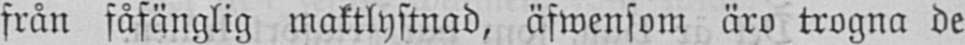från fåfänglig maktlystnad, äfwensom äro trogna de
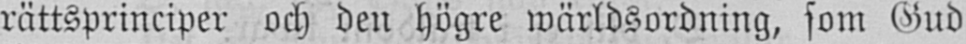rättsprinciper och den högre wärldsordning, som Gud
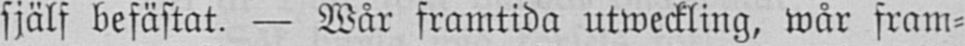själf befästat. — Wår framtida utweckling, wår fram-
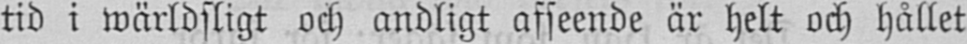tid i wärldsligt och andligt afseende är helt och hållet
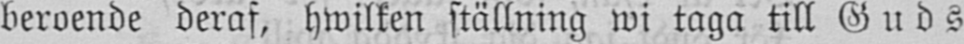beroende deraf, hwilken ställning wi taga till G u d s
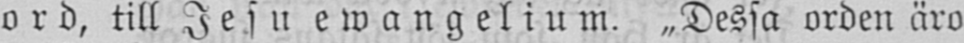o r d, till Jesu ewangelium. „Dessa orden äro
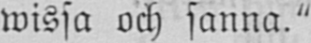wissa och sanna."
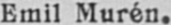Emil Murén.
